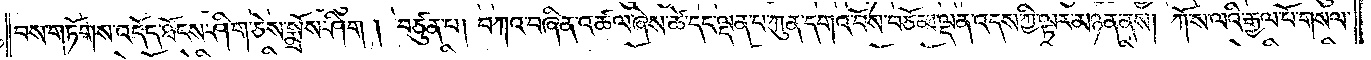བས་གཏོགས་འདོད་ཐོངས་ཤིག་ཅེས་སྨྲོས་ཤིག། བཙུན་པ། བཀའ་བཞིན་འཚལ་ཞེས་ཚེ་དང་ལྡན་པ་ཀུན་དགའ་བོས་བཅོམ་ལྡན་འདས་ཀྱི་ལྟར་མཉན་ནས། ཀོ་ས་ལའི་རྒྱལ་པོ་གསལ་
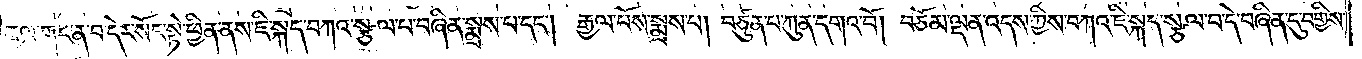རྒྱལ་གང་ན་བ་དེར་སོང་སྟེ་ཕྱིན་ནས་ཇི་སྐད་བཀའ་སྩལ་པ་བཞིན་སྨྲས་པ་དང༌། རྒྱལ་པོས་སྨྲས་པ། བཙུན་པ་ཀུན་དགའ་བོ། བཅོམ་ལྡན་འདས་ཀྱིས་བཀའ་ཇི་སྐད་སྩལ་པ་དེ་བཞིན་དུ་བགྱིས་
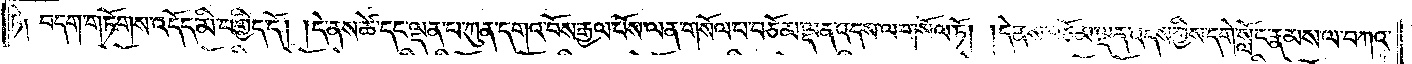ཏེ། བདག་གཏོགས་འདོད་མི་བགྱིད་དོ། །དེ་ནས་ཚེ་དང་ལྡན་པ་ཀུན་དགའ་བོས་རྒྱལ་པོས་ལན་གསོལ་བ་བཅོམ་ལྡན་འདས་ལ་གསོལ་ཏོ། །དེ་ནས་བཅོམ་ལྡན་འདས་ཀྱིས་དགེ་སློང་རྣམས་ལ་བཀའ་
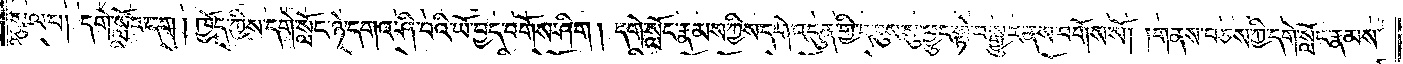སྩལ་པ། དགེ་སློང་དག། ཁྱོད་ཀྱིས་དགེ་སློང་ཉེ་དགའ་ཤི་བའི་ཡོ་བྱད་བགོས་ཤིག། དགེ་སློང་རྣམས་ཀྱིས་དགེ་འདུན་གྱི་དབུས་སུ་ཕྱུང་སྟེ་བསྒྱུར་ནས་བགོས་སོ། །གནས་བཅས་ཀྱི་དགེ་སློང་རྣམས་
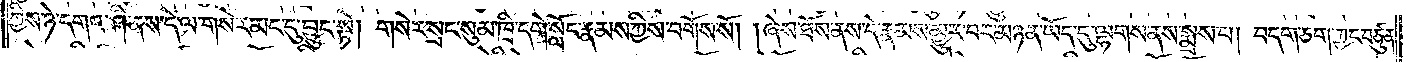ཀྱིས་ཉེ་དགའ་ཤི་ནས་དེ་ལ་གསེར་མང་དུ་བྱུང་སྟེ། གསེར་སྲང་སུམ་ཁྲི་དགེ་སློང་རྣམས་ཀྱིས་བགོས་སོ། །ཞེས་ཐོས་ནས་དེ་རྣམས་མྱུར་བར་མཉན་ཡོད་དུ་ལྷགས་ནས་སྨྲས་པ། བདག་ཅག་ཀྱང་བཙུན་
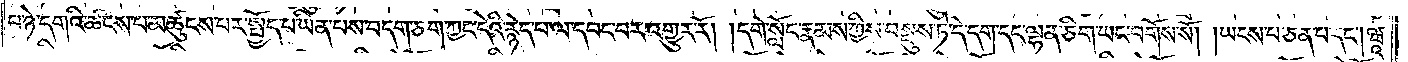པ་ཉེ་དགའི་ཚངས་པ་མཚུངས་པར་སྤྱོད་པ་ཡིན་པས་བདག་ཅག་ཀྱང་དེའི་རྙེད་པ་ལ་དབང་བར་འགྱུར་རོ། །དགེ་སློང་རྣམས་ཀྱིས་བསྡུས་ཏེ་དེ་དག་དང་ལྷན་ཅིག་ཡང་བགོས་སོ། །ཡངས་པ་ཅན་པ་དང༌། ཝཱ་
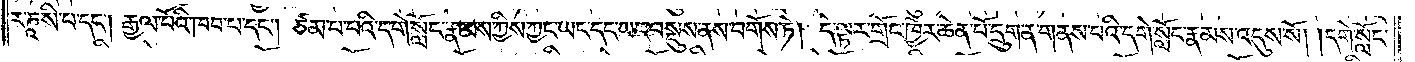ར་ཎཱ་སི་པ་དང༌། རྒྱལ་པོའི་ཁབ་པ་དང༌། ཙམ་པ་པའི་དགེ་སློང་རྣམས་ཀྱིས་ཀྱང་ཡང་དང་ཡང་བསྡུས་ནས་བགོས་ཏེ། དེ་ལྟར་གྲོང་ཁྱེར་ཆེན་པོ་དྲུག་ན་གནས་པའི་དགེ་སློང་རྣམས་འདུས་སོ། །དགེ་སློང་
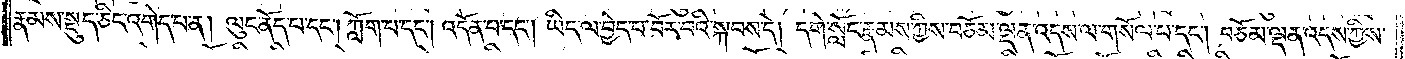རྣམས་སྡུད་ཅིང་འགེད་པ་ན། ལུང་ནོད་པ་དང༌། ཀློག་པ་དང༌། འདོན་པ་དང༌། ཡིད་ལ་བྱེད་པ་བོར་པའི་སྐབས་དེ། དགེ་སློང་རྣམས་ཀྱིས་བཅོམ་ལྡན་འདས་ལ་གསོལ་པ་དང༌། བཅོམ་ལྡན་འདས་ཀྱིས་
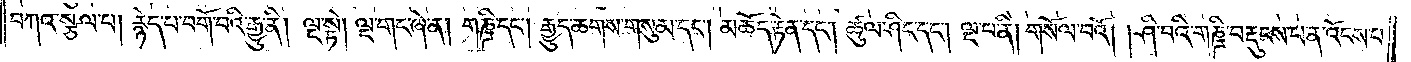བཀའ་སྩལ་པ། རྙེད་པ་བགོ་བའི་རྒྱུ་ནི། ལྔ་སྟེ། ལྔ་གང་ཞེ་ན། གཎྜི་དང༌། རྒྱུད་ཆགས་གསུམ་དང༌། མཆོད་རྟེན་དང༌། ཚུལ་ཤིང་དང༌། ལྔ་པ་ནི། གསོལ་བའོ། །ཤི་བའི་གཎྜི་བརྡུངས་པ་ན་འོངས་པ་
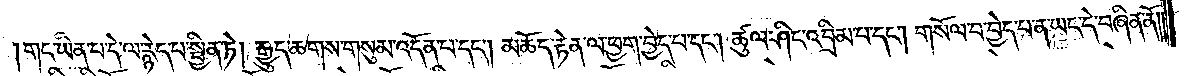གང་ཡིན་པ་དེ་ལ་རྙེད་པ་སྦྱིན་ཏེ། རྒྱུད་ཆགས་གསུམ་འདོན་པ་དང༌། མཆོད་རྟེན་ལ་ཕྱག་བྱེད་པ་དང༌། ཚུལ་ཤིང་འབྲིམ་པ་དང༌། གསོལ་བ་བྱེད་པ་ན་ཡང་དེ་བཞིན་ནོ༎
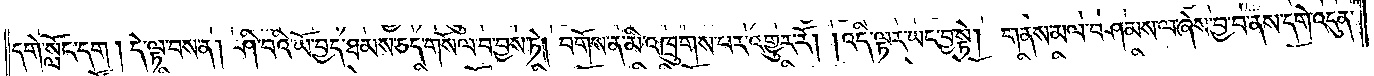དགེ་སློང་དག། དེ་ལྟ་བས་ན། ཤི་བའི་ཡོ་བྱད་ཐམས་ཅད་གསོལ་བ་བྱས་ཏེ། བགོས་ན་མི་འཁྲུགས་པར་འགྱུར་རོ། །འདི་ལྟར་ཡང་བྱ་སྟེ། གནས་མལ་བཤམས་ལ་ཞེས་བྱ་བ་ནས་དགེ་འདུན་
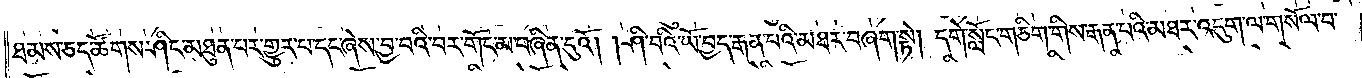ཐམས་ཅད་ཚོགས་ཤིང་མཐུན་པར་གྱུར་པ་དང་ཞེས་བྱ་བའི་བར་གོང་མ་བཞིན་དུའོ། །ཤི་བའི་ཡོ་བྱད་རྒན་པའི་མཐར་བཞག་སྟེ། དགེ་སློང་གཅིག་གིས་རྒན་པའི་མཐར་འདུག་པ་ལ་གསོལ་བ་
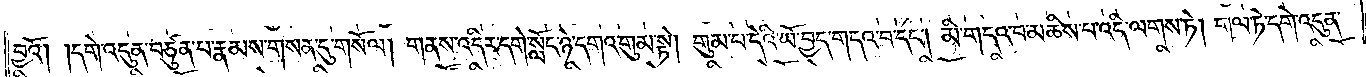བྱའོ། །དགེ་འདུན་བཙུན་པ་རྣམས་གསན་དུ་གསོལ། གནས་འདིར་དགེ་སློང་ཉེ་དགའ་གུམ་སྟེ། གུམ་པ་དེའི་ཡོ་བྱད་གདའ་བ་དང༌། མི་གདའ་བ་མཆིས་པ་འདི་ལགས་ཏེ། གལ་ཏེ་དགེ་འདུན་
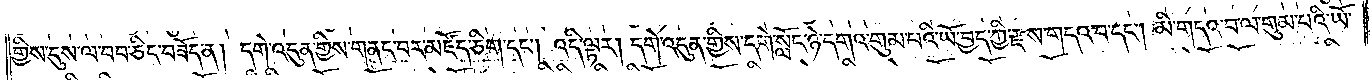གྱིས་དུས་ལ་བབ་ཅིང་བཟོད་ན། དགེ་འདུན་གྱིས་གནང་བར་མཛོད་ཅིག་དང༌། འདི་ལྟར། དགེ་འདུན་གྱིས་དགེ་སློང་ཉེ་དགའ་གུམ་པའི་ཡོ་བྱད་ཀྱི་རྫས་གདའ་བ་དང༌། མི་གདའ་བ་ལ་གུམ་པའི་ཡོ་
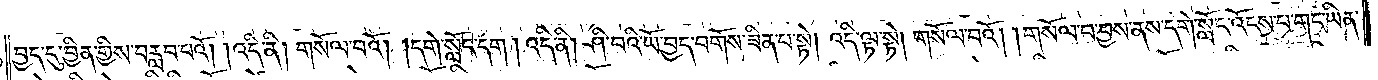བྱད་དུ་བྱིན་གྱིས་བརླབ་པའོ། །འདི་ནི། གསོལ་བའོ། །དགེ་སློང་དག། འདི་ནི། ཤི་བའི་ཡོ་བྱད་བགོས་ཟིན་པ་སྟེ། འདི་ལྟ་སྟེ། གསོལ་བའོ། །གསོལ་བ་བྱས་ནས་དགེ་སློང་འོངས་པ་གང་ཡིན་
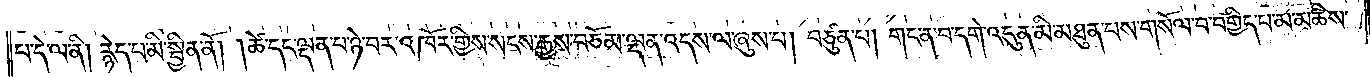པ་དེ་ལ་ནི། རྙེད་པ་མི་སྦྱིན་ནོ། །ཚེ་དང་ལྡན་པ་ཉེ་བར་འཁོར་གྱིས་སངས་རྒྱས་བཅོམ་ལྡན་འདས་ལ་ཞུས་པ། བཙུན་པ། གང་ན་བ་དགེ་འདུན་མི་མཐུན་པས་གསོལ་བ་བགྱིད་པ་མ་མཆིས་
